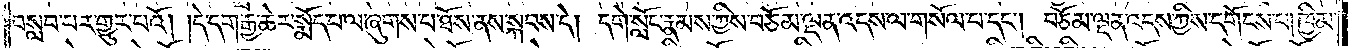བསླབ་པར་གྱུར་པའོ། །དེ་དག་རྒྱ་ཆེར་སྨོད་པ་ལ་ཞུགས་པ་ཐོས་ནས་སྐབས་དེ། དགེ་སློང་རྣམས་ཀྱིས་བཅོམ་ལྡན་འདས་ལ་གསོལ་པ་དང༌། བཅོམ་ལྡན་འདས་ཀྱིས་དགོངས་པ། ཁྱིམ་
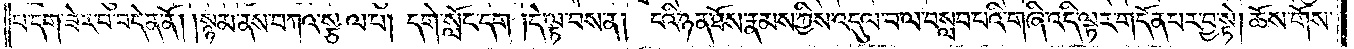པ་དག་ཟེར་བ་བདེན་ནོ། །སྙམ་ནས་བཀའ་སྩལ་པ། དགེ་སློང་དག །དེ་ལྟ་བས་ན། ངའི་ཉན་ཐོས་རྣམས་ཀྱིས་འདུལ་བ་ལ་བསླབ་པའི་གཞི་འདི་ལྟར་གདོན་པར་བྱ་སྟེ། ཆོས་གོས་
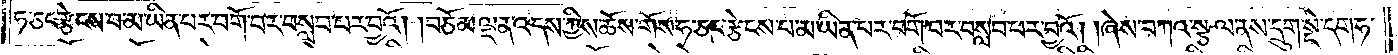ཧ་ཅང་རྩེངས་བ་མ་ཡིན་པར་བགོ་བར་བསླབ་པར་བྱའོ། །བཅོམ་ལྡན་འདས་ཀྱིས་ཆོས་གོས་ཧ་ཅང་རྩེངས་པ་མ་ཡིན་པར་བགོ་བར་བསླབ་པར་བྱའོ། །ཞེས་བཀའ་སྩལ་ནས་དྲུག་སྡེ་དག་ཧ་
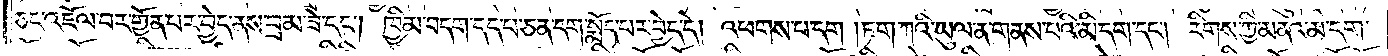ཅང་འཇོལ་བར་གྱོན་པར་བྱེད་ནས་བྲམ་ཟེ་དང༌། ཁྱིམ་བདག་དད་པ་ཅན་དག་སྨོད་པར་བྱེད་དེ། འཕགས་པ་དག །ཏག་ཀའི་ཡུལ་ན་གནས་པའི་མི་དག་དང༌། རིགས་ཀྱི་མནའ་མ་དག་
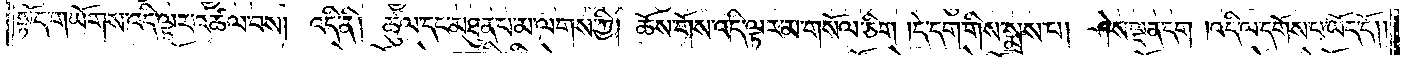སྟོད་གཡོགས་འདི་ལྟར་འཚལ་བས། འདི་ནི། ཚུལ་དང་མཐུན་པ་མ་ལགས་ཀྱི། ཆོས་གོས་འདི་ལྟར་མ་གསོལ་ཅིག །དེ་དག་གིས་སྨྲས་པ། ཤེས་ལྡན་དག །འདི་ལ་དགོས་པ་ཡོད་དོ། །
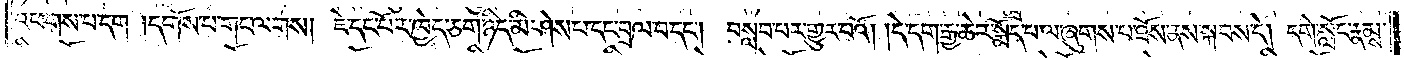འཕགས་པ་དག །དགོས་པ་གང་ལགས། ཇེ་དང་པོར་ཁྱེད་ཅག་ཉིད་མི་ཤེས་པ་དང་བྲལ་བ་དང༌། བསླབ་པ་གྱུར་པའོ། དེ་དག་རྒྱ་ཆེར་སྨོད་པ་ལ་ཞུགས་པ་ཐོས་ནས་སྐབས་དེ། དགེ་སློང་རྣམས་
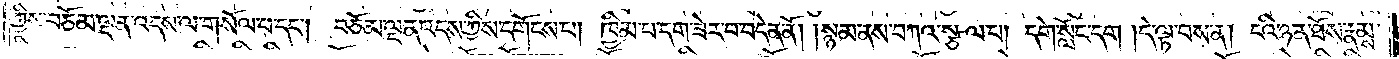ཀྱིས་བཅོམ་ལྡན་འདས་ལ་གསོལ་པ་དང༌༎ བཅོམ་ལྡན་འདས་ཀྱིས་དགོངས་པ། ཁྱིམ་པ་དག་ཟེར་བ་བདེན་ནོ། སྙམ་ནས་བཀའ་སྩལ་པ། དགེ་སློང་དག། དེ་ལྟ་བས་ན། ངའི་ཉན་ཐོས་རྣམས།
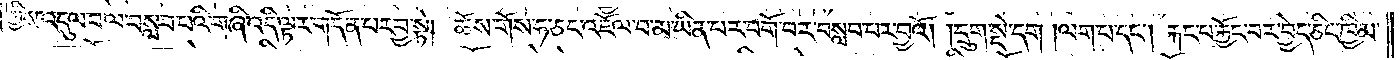ཀྱིས་འདུལ་བ་ལ་བསླབ་པའི་གཞི་འདི་ལྟར་གདོན་པར་བྱ་སྟེ། ཆོས་གོས་ཧ་ཅང་འཇོལ་བ་མ་ཡིན་པར་བགོ་བར་བསླབ་པར་བྱའོ། །དྲུག་སྡེ་དག །ལག་པ་དང༌། རྐང་པ་རྐྱོང་བར་བྱེད་ཅིང་ཁྱིམ་
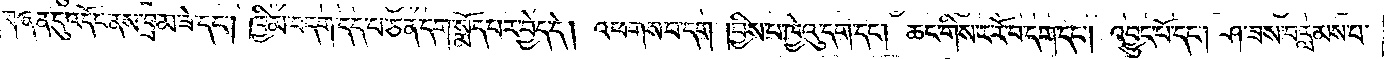གཞན་དུ་འདོང་ནས་བྲམ་ཟེ་དང༌། ཁྱིམ་བདག་དད་པ་ཅན་དག་སྨོད་པར་བྱེད་དེ། འཕགས་པ་དག །བྱིས་པ་ཁྱེའུ་དག་དང༌། ཆང་གིས་ར་རོ་བ་དག་དང༌། འབྱུང་པོ་དང༌། ཤ་ཟས་བརླམས་པ་
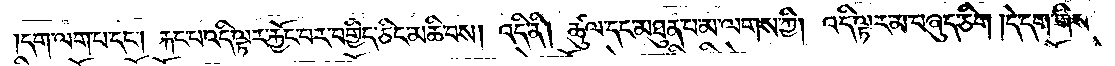དག་ལག་པ་དང༌། རྐང་པ་འདི་ལྟར་རྐྱོང་བར་བགྱིད་ཅིང་མཆི་བས། འདི་ནི། ཚུལ་དང་མཐུན་པ་མ་ལགས་ཀྱི། འདི་ལྟར་མ་བཞུད་ཅིག །དེ་དག་གིས་
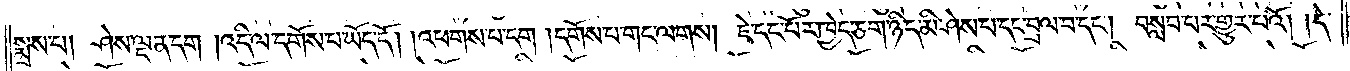སྨྲས་པ། ཤེས་ལྡན་དག །འདི་ལ་དགོས་པ་ཡོད་དོ། །འཕགས་པ་དག །དགོས་པ་གང་ལགས། ཇེ་དང་པོར་ཁྱེད་ཅག་ཉིད་མི་ཤེས་པ་དང་བྲལ་བ་དང༌། བསླབ་པར་གྱུར་པའོ། །དེ་
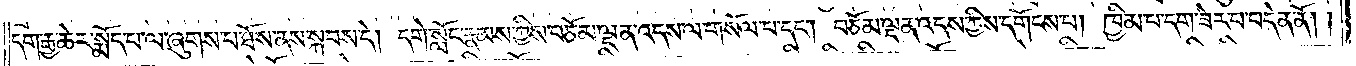དག་རྒྱ་ཆེར་སྨོད་པ་ལ་ཞུགས་པ་ཐོས་ནས་སྐབས་དེ། དགེ་སློང་རྣམས་ཀྱིས་བཅོམ་ལྡན་འདས་ལ་གསོལ་བ་དང༌། བཅོམ་ལྡན་འདས་ཀྱིས་དགོངས་པ། ཁྱིམ་པ་དག་ཟེར་བ་བདེན་ནོ། །
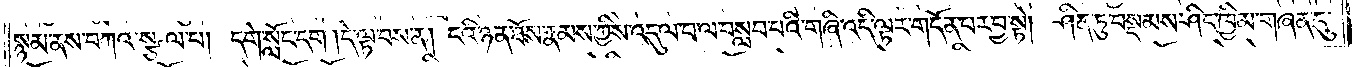སྙམ་ནས་བཀའ་སྩལ་པ། དགེ་སློང་དག །དེ་ལྟ་བས་ན། ངའི་ཉན་ཐོས་རྣམས་ཀྱིས་འདུལ་བ་ལ་བསླབ་པའི་གཞི་འདི་ལྟར་གདོན་པར་བྱ་སྟེ། ཤིན་ཏུ་བསྡམས་ཤིང་ཁྱིམ་གཞན་དུ་
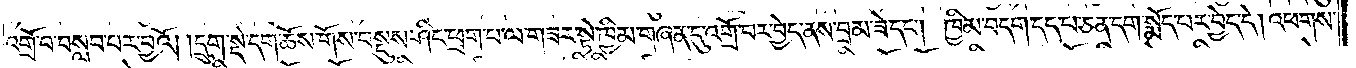འགྲོ་བ་བསླབ་པར་བྱའོ། །དྲུག་སྡེ་དག་ཆོས་གོས་བསྡུས་ཤིང་ཕྲག་པ་ལ་གཟར་སྟེ་ཁྱིམ་གཞན་དུ་འགྲོ་བར་བྱེད་ནས་བྲམ་ཟེ་དང༌། ཁྱིམ་བདག་དད་པ་ཅན་དག་སྨོད་པར་བྱེད་དེ། འཕགས་
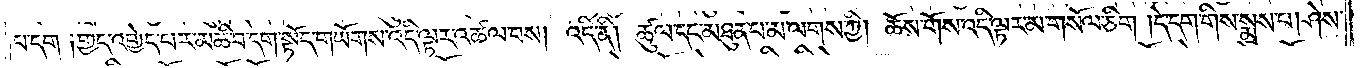པ་དག །གྱད་འགྱེད་པར་མཆི་བ་དག་སྟོད་གཡོགས་འདི་ལྟར་འཚལ་བས། འདི་ནི། ཚུལ་དང་མཐུན་པ་མ་ལགས་ཀྱི། ཆོས་གོས་འདི་ལྟར་མ་གསོལ་ཅིག །དེ་དག་གིས་སྨྲས་པ། ཤེས་
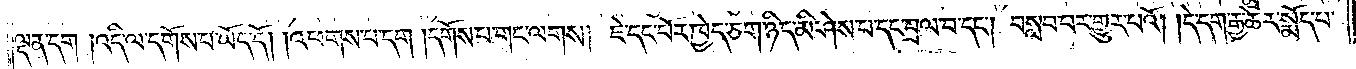ལྡན་དག །འདི་ལ་དགོས་པ་ཡོད་དོ། །འཕགས་པ་དག །དགོས་པ་གང་ལགས། ཇེ་དང་པོར་ཁྱེད་ཅག་ཉིད་མི་ཤེས་པ་དང་བྲལ་བ་དང༌། བསླབ་པར་གྱུར་བའོ། །དེ་དག་རྒྱ་ཆེར་སྨོད་པ་
